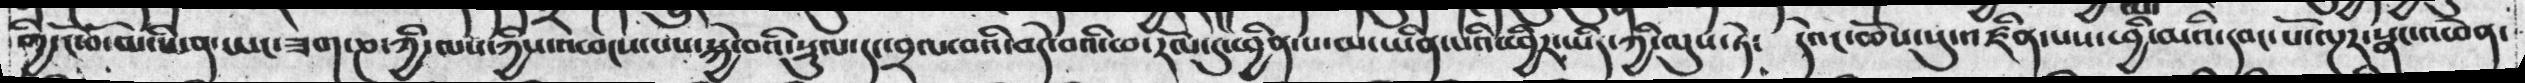གྱི་ངོ་བོ་ཡིན་ཡང་ཟག་ཎ་ཀྱི་ལས་ཀྱིས་འཕངས་པས་སྐྱེ་བའི་སྡུལ་དང་བྲལ་བའི་བདེ་བའི་ཕ་རོལ་དུ་ཕྱིན་པ་མ་ཡིན་པའི་ཕྱིར་ཡིད་ཀྱི་ལུས་ཏེ༴  དེའང་ཆོས་སུ་འཛིན་པས་ཕྱི་མའི་དབང་པོ་ལྔར་སྣང་འཕེན་
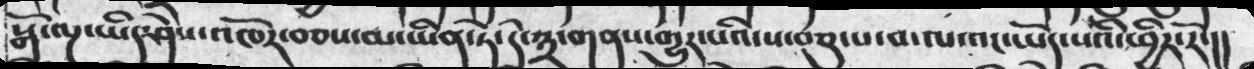སྒོ་ལྔ་ཡིད་ཤེས་འཁོར་བཅས་མ་ཡིན་ཏེ་དེ་༣་གནས་གྱུར་པའི་ས་བཅུ་པ་བ་ལ་འང་ཡོད་པའི་ཕྱིར་རོ་།།
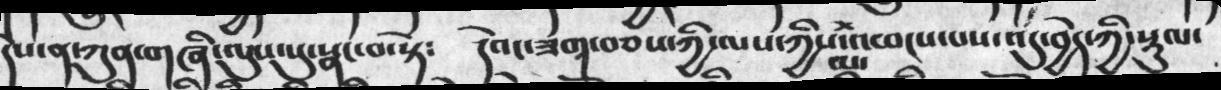དེས་ན་ཀུན་གཞི་ལུས་སུ་སྣང་བ་སྟེ༴      དེའང་ཟག་བཅས་ཀྱི་ལས་ཀྱི་མ་འཕངས་པས་འདུ་བྱེད་ཀྱི་སྡུལ་
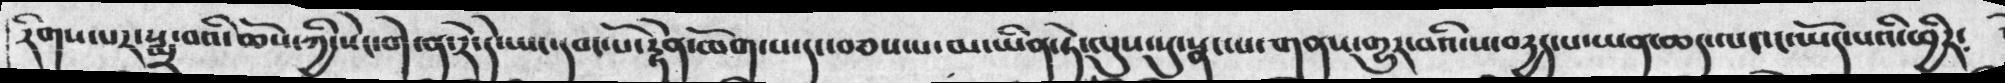རིགས་པར་སྨྲ་བའི་ཆོས་ཀྱི་སེང་གེ་ན་རེ་དེ་ཡང་དབང་པོ་རྟེན་ཆོག་པ་དང་བཅས་པ་མ་ཡིན་ཏེ་ལུས་སུ་སྣང་པ་གནས་གྱུར་བའི་ས་བརྱད་པ་ཡན་ཆད་ལའང་ཡོད་པའི་ཕྱིར༴
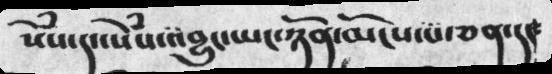སེཾས་དང་སེཾས་འབྱུང་ཡང་ཉོན་མོངས་པ་ཅན་དང༴
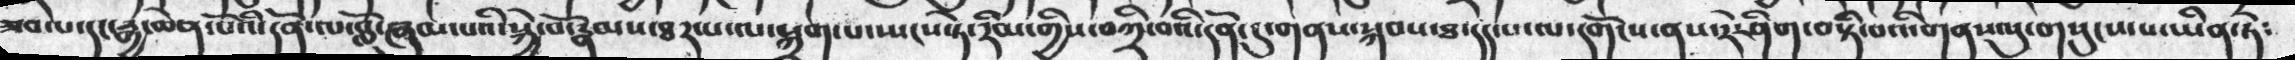ཟབ་པ་དང་རྒྱ་ཆེན་པོའི་དོན་ལ་བློ་ཞུམ་པའི་སྐྱེ་བོ་རྣམས་ཐར་པ་ལ་སྐྲག་པ་སྤངས་ཏེ་རིམ་གྱིས་བཀྲི་བའི་དོན་དུ་གནས་སྐབས་ཐ་དད་པ་ལ་དགོངས་ནས་རེ་ཤིག་བསྟི་བའི་གནས་སུ་གསུངས་པ་ཡིན་ཏེ༴
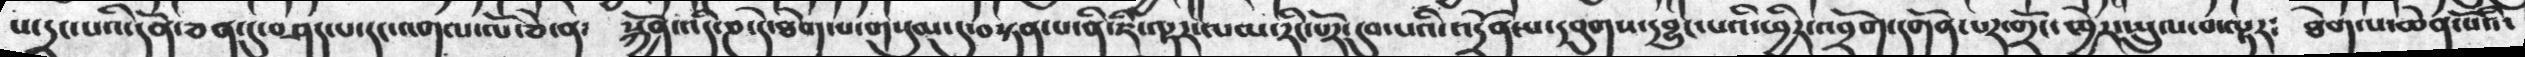པ་དྲང་པའི་དོན་ཅན་དུ་བཤད་པ་དང་འགལ་ལོ་ཅེ་ན༴  སྐྱོན་འདི་ཎ་དེ་ཐེག་པ་གསུམ་དུ་བསྟན་པ་ནི་ཇི་ལྟར་ལམ་རིང་པོར་དུབ་པའི་འདྲོན་པ་དབུགས་དབྱུང་པའི་ཕྱིར་འབྲོག་དགོན་པར་གྲོང་ཁྱེར་སྤྲུལ་བ་ལྟར༴  ཐེག་པ་ཆེན་པོའི་
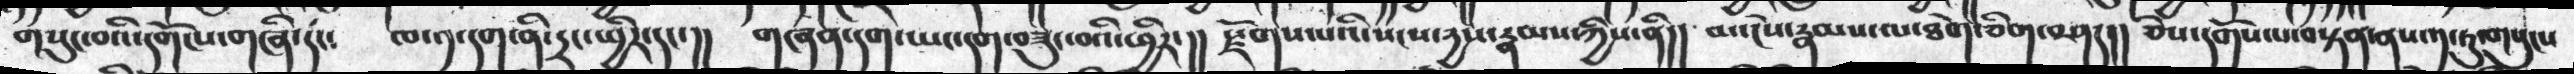གསུང་བའི་དགོངས་གཞི་དང༴  ཁ་༡་དག་ནི་དྲང་ཕྱིར་དང་།།  གཞན་དག་ཡང་དག་བཟུང་བའི་ཕྱིར་།། སྫོགས་པའི་སངས་རྱས་རྣམས་ཀྱིས་ནི།། མ་ངེས་རྣམས་ལ་ཐེག་ཅིག་བཤད།། ཅེས་དགོས་པ་བསྟན་ནས་༡་ཏུ་གསུངས
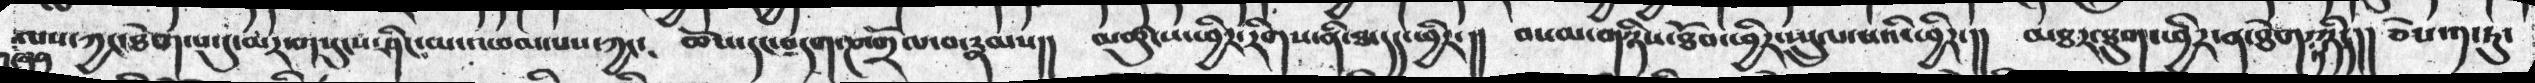གཞན་ལས་ཀྱང་ཐེག་པ་དུ་མར་གསུངས་ཤིང་མ་འཕམ་པས་ཀྱང༴   ཆོས་དང་བདག་ཎ་གྲོལ་བ་རྣམས།།  མཚུངས་ཕྱིར་རིགས་ནི་ཐ་དད་པའི་ཕྱིར་།།   བསམ་གཉིས་ཐོབ་ཕྱིར་སྤྲུལ་པའི་ཕྱིར་།།   མཐར་ཐུག་ཕྱིར་ན་ཐེག་༡་ཉིད།།   ཅེས་༡་ཏུ་
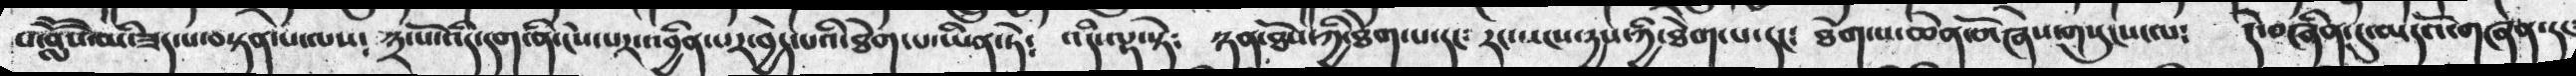བ་བློོས་མི་ཟད་པ་བསྟན་པ་ལས༴ ༣་པོ་འདི་དག་ནི་ངེས་པར་འབྱིན་པར་བྱེད་པའི་ཐེག་པ་ཡིན་ཏེ༴  འདི་ལྟ་སྟེ༴  ཉན་ཐོས་ཀྱི་ཐེག་པ་དང༴  རང་སངས་རྱས་ཀྱི་ཐེག་པ་དང༴ ཐེག་པ་ཆེན་པོ་ཞེས་གསུངས་ལ༴  དེ་བཞཱིན་དུ་མདོའ་གཞན་དང༴
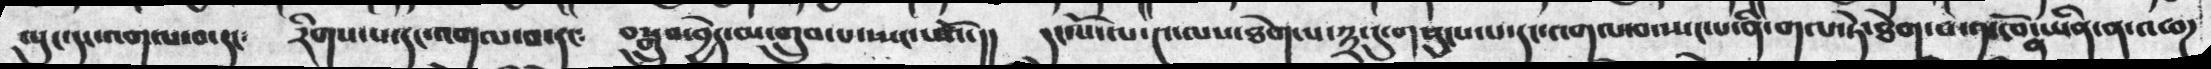ལུང་དང་འགལ་བ་དང༴   རིགས་པ་དང་འགལ་བ་དང༴   བསྒྲུབ་བྱེད་མ་གྲུབ་པ་སྤང་པའོ་།།   དང་པོ་༤་ལས་ཐེག་པ་༣་དུ་གསུངས་པ་དང་འགལ་བ་སྤང་པ་ནི་གལ་ཏེ་ཐེག་པ་༡་ཁོ་ན་ཡིན་ན་འཕཌ
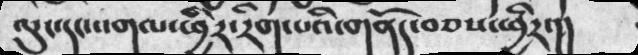ལུང་དང་འགལ་ཕྱིར་རིག་པའི་གནོད་བཅས་ཕྱིར་།།
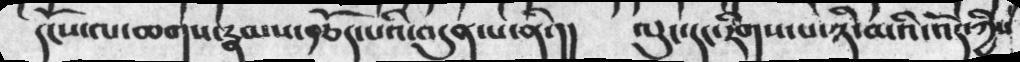དངོས་ལ་ཆགས་རྣམས་རྩོད་པའི་བདུན་པ་ནི་།།  ལུང་དང་རིགས་པ་ཉི་མའི་འོད་ཀྱིས
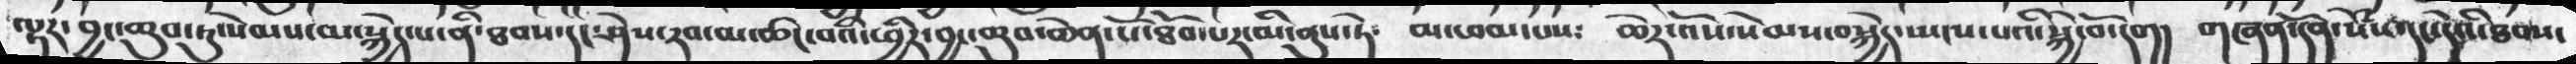༴ ལྟར་བྱང་ཆུབ་སེམས་མ་སྐྱེད་པ་ནི་ཐབས་དང་ཤེས་རབ་མ་ཚང་པའི་ཕྱིར་བྱང་ཆུབ་ཆེན་པོ་ཐོབ་པར་མི་ནུས་ཏེ༴  མ་ཕམ་པས༴  ཆེར་འོས་སེམས་བསྐྱེད་སྤངས་པའི་སྐྱེ་བོ་དག།  གཞན་དོན་སེཾས་དང་དེའི་ཐབས་
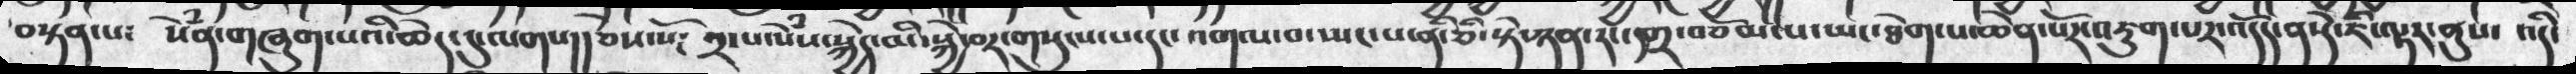བསྟན་པ༴  སེཾན་གཞུག་པའི་ཆེད་དུ་ལགས།།ཅེས་སོ༴ ༢་པ་སེཾས་སྐྱེད་མི་སྐྱེ་བར་གསུངས་པ་དང་འགལ་བ་ཡང་པ་ནི་ཅི་སྟེ་ཉན་རང་དགྲ་བཅོམ་པ་ཡང་ཐེག་པ་ཆེན་པོར་འཇུག་པར་འདོད་ན་དེ་ཇི་ལྟར་ནུས་ འདི་
